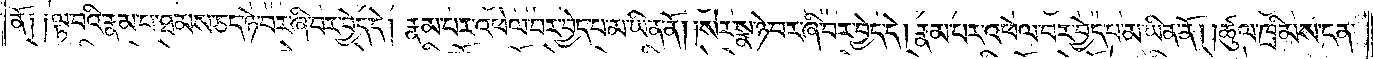ནོ། །ལྟ་བའི་རྣམ་པ་ཐམས་ཅད་ཉེ་བར་ཞི་བར་བྱེད་དེ། རྣམ་པར་འཕེལ་བར་བྱེད་པ་མ་ཡིན་ནོ། །སེར་སྣ་ཉེ་བར་ཞི་བར་བྱེད་དེ། རྣམ་པར་འཕེལ་བར་བྱེད་པ་མ་ཡིན་ནོ། །ཚུལ་ཁྲིམས་ངན་
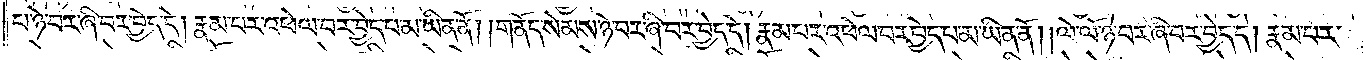པ་ཉེ་བར་ཞི་བར་བྱེད་དེ། རྣམ་པར་འཕེལ་བར་བྱེད་པ་མ་ཡིན་ནོ། །གནོད་སེམས་ཉེ་བར་ཞི་བར་བྱེད་དེ། རྣམ་པར་འཕེལ་བར་བྱེད་པ་མ་ཡིན་ནོ། །ལེ་ལོ་ཉེ་བར་ཞི་བར་བྱེད་དེ། རྣམ་པར་
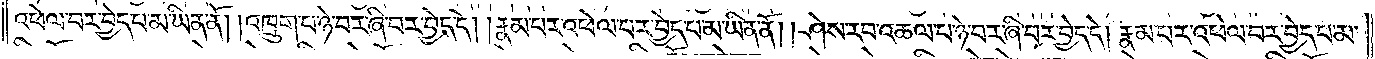འཕེལ་བར་བྱེད་པ་མ་ཡིན་ནོ། །འཁྲུག་པ་ཉེ་བར་ཞི་བར་བྱེད་དེ། རྣམ་པར་འཕེལ་བར་བྱེད་པ་མ་ཡིན་ནོ། །ཤེས་རབ་འཆལ་པ་ཉེ་བར་ཞི་བར་བྱེད་དེ། རྣམ་པར་འཕེལ་བར་བྱེད་པ་མ་
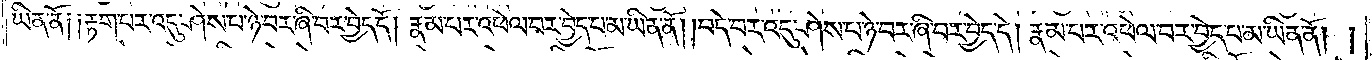ཡིན་ནོ། །རྟག་པར་འདུ་ཤེས་པ་ཉེ་བར་ཞི་བར་བྱེད་དེ། རྣམ་པར་འཕེལ་བར་བྱེད་པ་མ་ཡིན་ནོ། །བདེ་བར་འདུ་ཤེས་པ་ཉེ་བར་ཞི་བར་བྱེད་དེ། རྣམ་པར་འཕེལ་བར་བྱེད་པ་མ་ཡིན་ནོ། །
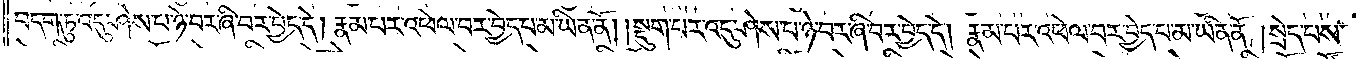བདག་ཏུ་འདུ་ཤེས་པ་ཉེ་བར་ཞི་བར་བྱེད་དེ། རྣམ་པར་འཕེལ་བར་བྱེད་པ་མ་ཡིན་ནོ། །སྡུག་པར་འདུ་ཤེས་པ་ཉེ་བར་ཞི་བར་བྱེད་དེ། རྣམ་པར་འཕེལ་བར་བྱེད་པ་མ་ཡིན་ནོ། །སྲེད་པས་
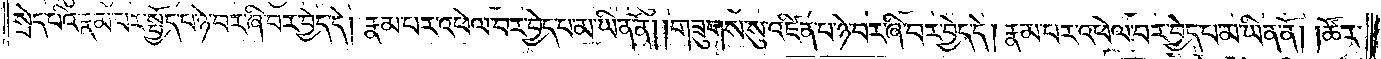སྲེད་པའི་རྣམ་པར་སྤྱོད་པ་ཉེ་བར་ཞི་བར་བྱེད་དེ། རྣམ་པར་འཕེལ་བར་བྱེད་པ་མ་ཡིན་ནོ། །གཟུགས་སུ་འཛིན་པ་ཉེ་བར་ཞི་བར་བྱེད་དེ། རྣམ་པར་འཕེལ་བར་བྱེད་པ་མ་ཡིན་ནོ། །ཚོར་
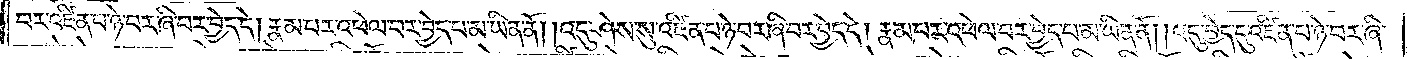བར་འཛིན་པ་ཉེ་བར་ཞི་བར་བྱེད་དེ། རྣམ་པར་འཕེལ་བར་བྱེད་པ་མ་ཡིན་ནོ། །འདུ་ཤེས་སུ་འཛིན་པ་ཉེ་བར་ཞི་བར་བྱེད་དེ། རྣམ་པར་འཕེལ་བར་བྱེད་པ་མ་ཡིན་ནོ། །འདུ་བྱེད་དུ་འཛིན་པ་ཉེ་བར་ཞི་
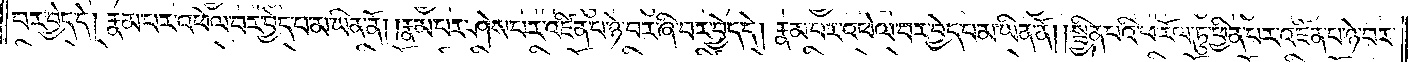བར་བྱེད་དེ། རྣམ་པར་འཕེལ་བར་བྱེད་པ་མ་ཡིན་ནོ། །རྣམ་པར་ཤེས་པར་འཛིན་པ་ཉེ་བར་ཞི་བར་བྱེད་དེ། རྣམ་པར་འཕེལ་བར་བྱེད་པ་མ་ཡིན་ནོ། །སྦྱིན་པའི་ཕ་རོལ་ཏུ་ཕྱིན་པར་འཛིན་པ་ཉེ་བར་
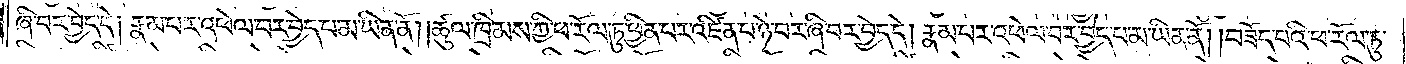ཞི་བར་བྱེད་དེ། རྣམ་པར་འཕེལ་བར་བྱེད་པ་མ་ཡིན་ནོ༎ ཚུལ་ཁྲིམས་ཀྱི་ཕ་རོལ་ཏུ་ཕྱིན་པར་འཛིན་པ་ཉེ་བར་ཞི་བར་བྱེད་དེ། རྣམ་པར་འཕེལ་བར་བྱེད་པ་མ་ཡིན་ནོ། །བཟོད་པའི་ཕ་རོལ་ཏུ་
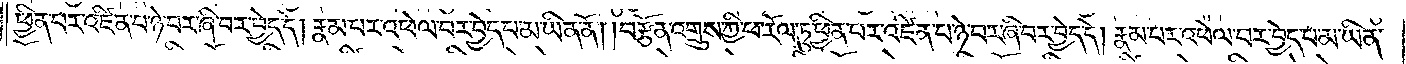ཕྱིན་པར་འཛིན་པ་ཉེ་བར་ཞི་བར་བྱེད་དེ། རྣམ་པར་འཕེལ་བར་བྱེད་པ་མ་ཡིན་ནོ། །བརྩོན་འགྲུས་ཀྱི་ཕ་རོལ་ཏུ་ཕྱིན་པར་འཛིན་པ་ཉེ་བར་ཞི་བར་བྱེད་དེ། རྣམ་པར་འཕེལ་བར་བྱེད་པ་མ་ཡིན་
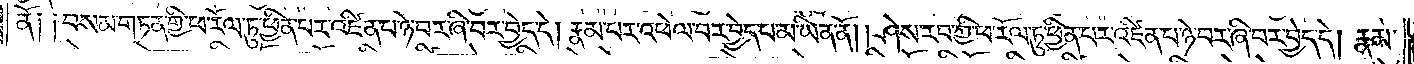ནོ༑ ༑བསམ་གཏན་གྱི་ཕ་རོལ་ཏུ་ཕྱིན་པར་འཛིན་པ་ཉེ་བར་ཞི་བར་བྱེད་དེ། རྣམ་པར་འཕེལ་བར་བྱེད་པ་མ་ཡིན་ནོ། །ཤེས་རབ་ཀྱི་ཕ་རོལ་ཏུ་ཕྱིན་པར་འཛིན་པ་ཉེ་བར་ཞི་བར་བྱེད་དེ། རྣམ་
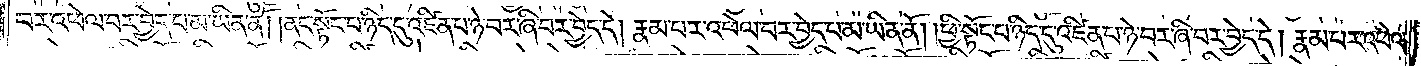པར་འཕེལ་བར་བྱེད་པ་མ་ཡིན་ནོ། །ནང་སྟོང་པ་ཉིད་དུ་འཛིན་པ་ཉེ་བར་ཞི་བར་བྱེད་དེ། རྣམ་པར་འཕེལ་བར་བྱེད་པ་མ་ཡིན་ནོ། །ཕྱི་སྟོང་པ་ཉིད་དུ་འཛིན་པ་ཉེ་བར་ཞི་བར་བྱེད་དེ། རྣམ་པར་འཕེལ་
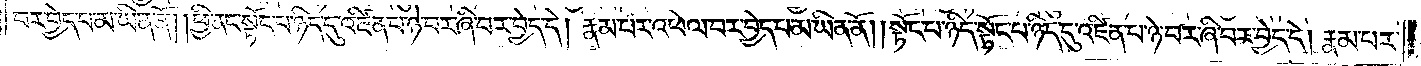བར་བྱེད་པ་མ་ཡིན་ནོ། །ཕྱི་ནང་སྟོང་པ་ཉིད་དུ་འཛིན་པ་ཉེ་བར་ཞི་བར་བྱེད་དེ། རྣམ་པར་འཕེལ་བར་བྱེད་པ་མ་ཡིན་ནོ། །སྟོང་པ་ཉིད་སྟོང་པ་ཉིད་དུ་འཛིན་པ་ཉེ་བར་ཞི་བར་བྱེད་དེ། རྣམ་པར་
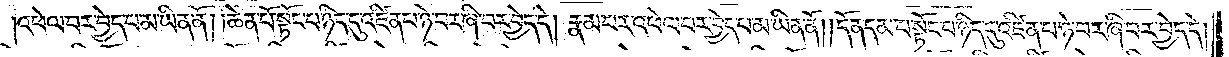འཕེལ་བར་བྱེད་པ་མ་ཡིན་ནོ། །ཆེན་པོ་སྟོང་པ་ཉིད་དུ་འཛིན་པ་ཉེ་བར་ཞི་བར་བྱེད་དེ། རྣམ་པར་འཕེལ་བར་བྱེད་པ་མ་ཡིན་ནོ། །དོན་དམ་པ་སྟོང་པ་ཉིད་དུ་འཛིན་པ་ཉེ་བར་ཞི་བར་བྱེད་དེ།
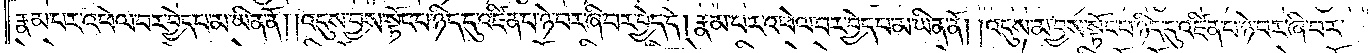རྣམ་པར་འཕེལ་བར་བྱེད་པ་མ་ཡིན་ནོ། །འདུས་བྱས་སྟོང་པ་ཉིད་དུ་འཛིན་པ་ཉེ་བར་ཞི་བར་བྱེད་དེ། །རྣམ་པར་འཕེལ་བར་བྱེད་པ་མ་ཡིན་ནོ། །འདུས་མ་བྱས་སྟོང་པ་ཉིད་དུ་འཛིན་པ་ཉེ་བར་ཞི་བར་
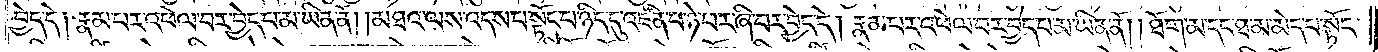བྱེད་དེ། རྣམ་པར་འཕེལ་བར་བྱེད་པ་མ་ཡིན་ནོ། །མཐའ་ལས་འདས་པ་སྟོང་པ་ཉིད་དུ་འཛིན་པ་ཉེ་བར་ཞི་བར་བྱེད་དེ། རྣམ་པར་འཕེལ་བར་བྱེད་པ་མ་ཡིན་ནོ། །ཐོག་མ་དང་ཐ་མ་མེད་པ་སྟོང་
